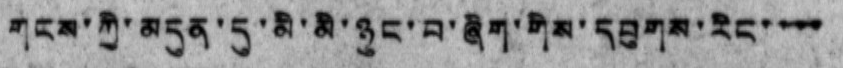གངས་ཀྱི་མདུན་དུ་མི་མི་ཉུང་བ་ཞིག་གིས་དབུགས་རིང་་་་
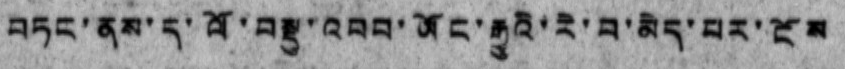བཏང་ནས་ད་ལོ་བསྡུ་འབབ་ཡོང་རྒྱུའི་རེ་བ་མེད་པར་ངོས
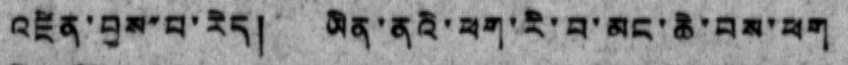འཛིན་བྱས་པ་རེད། ཡིན་ནའི་ཕག་རི་བ་མང་ཆེ་བས་ཕག
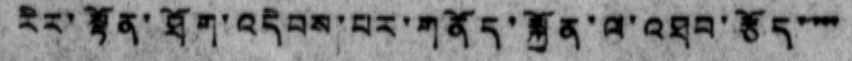རིར་སྟོན་ཐོག་འདེབས་པར་གནོད་སྐྱོན་ལ་འཐབ་རྩོད་་་་
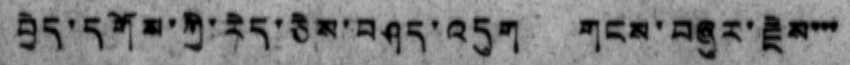བྱེད་དགོས་ཀྱི་རེད་ཅེས་བཤད་འདུག གངས་བཞུར་རྗེས་་་
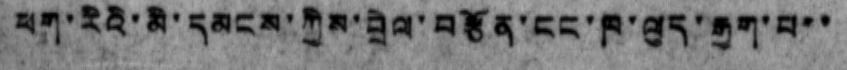ཕག་རིའི་མི་དམངས་ཀྱིས་བྲེལ་བརྩོན་ངང་ཁ་ལུད་རྒྱག་པ་་
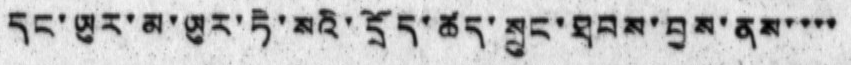དང་ཡུར་མ་ཡུར་ཏེ་སའི་དྲོད་ཚད་སྲུང་ཐབས་བྱས་ནས་་་་
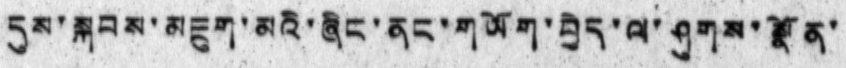དུས་སྐབས་མཇུག་མའི་ཞིང་ནང་གཡོག་བྱེད་ལ་ཤུགས་སྣོན་
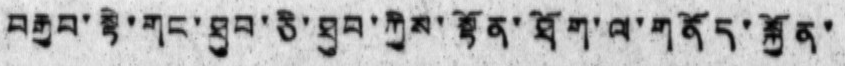བརྒྱབ་སྟེ་གང་ཐུབ་ཅི་ཐུབ་ཀྱིས་སྟོན་ཐོག་ལ་གནོད་སྐྱོན་
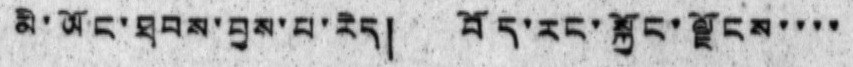མི་ཡོང་ཐབས་བྱས་པ་རེད། བོད་རང་སྐྱོང་ལྗོངས་་་་
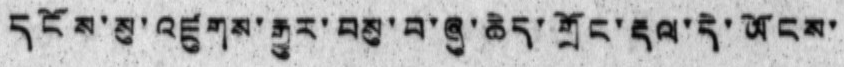དངོས་སུ་འཛུགས་རྒྱུར་བསུ་བ་ཞུ་ཆེད་གྲོང་རྡལ་དེ་ཡོངས་
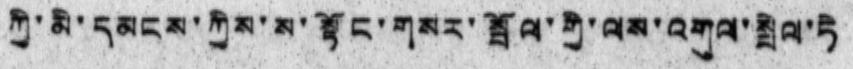ཀྱི་མི་དམངས་ཀྱིས་ས་སྟོང་གསར་སྦོལ་གྱི་ལས་འགུལ་སྤེལ་ཏེ
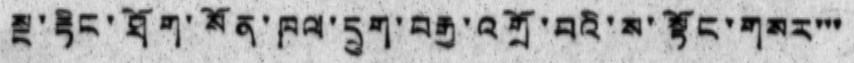སྔ་རྟིང་ཐོག་སོན་ཁལ་དྲུག་བརྒྱ་འགྲོ་བའི་མ་སྟོང་གསར་་་
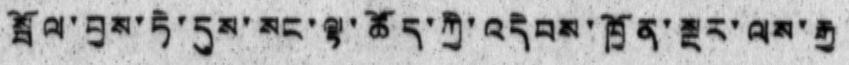སྦོལ་བྱས་ཏེ་དུས་སང་ལྟ་ཚོད་ཀྱི་འདེབས་ཁྱོན་སྔར་ལས་རྒྱ
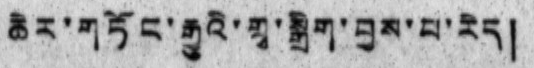ཆེར་གཏོང་རྒྱུའི་གྲྭ་སྒྲིག་བྱས་པ་རེད།
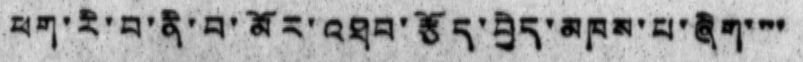ཕག་རི་བ་ནི་བ་མོར་འཐབ་རྩོད་བྱེད་མཁས་པ་ཞིག་་་་
